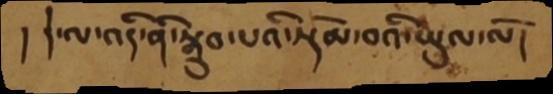།དེ་ལ་འདི་ནི་སྒྲུབ་པའི་སྡོམ་བའི་ཡུལ་ལོ།
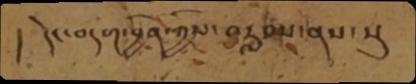། དེང་བདག་བྱིན་ཀྱིས་ བརླབས་ནས་སུ
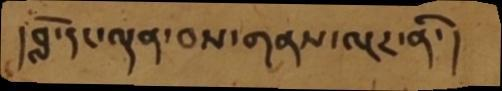།བློ་དང་ལྡན་བས་གནས་ལྔར་ནི་།
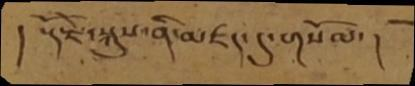། རྡོ་རྗེ་སྐུས་ནི་མཛད་དུ་གསོལ་།
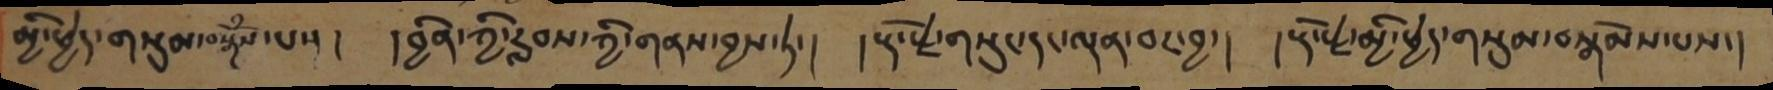མྱི་ཕྱེད་གསུམ་བསྒོཾས་པས་།  །བྱིན་ཀྱི་རླབས་ཀྱི་གནས་བྱས་ཏེ་།  །རྡོ་རྗེ་གསུང་དང་ལྡན་བར་བྱ་།   །རྡོ་རྗེ་མྱི་ཕྱེད་གསུམ་བསྒོམས་པས་།
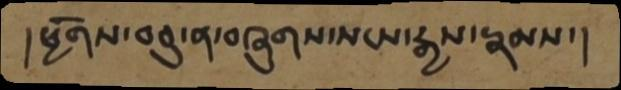།ཕྱོགས་བཅུ་ན་བཞུགས་སངས་རྒྱས་རྣམས་།
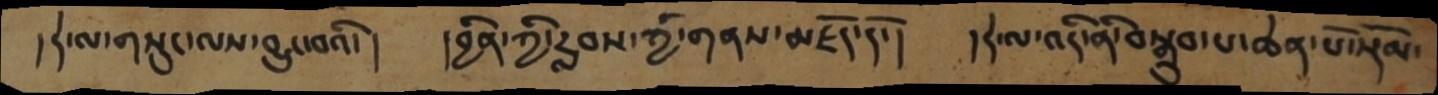།དེ་ལ་གསུང་ལས་བྱུང་བའི་།  །བྱིན་ཀྱི་རླབས་ཀྱི་གནས་མཛོད་དོ་།  །དེ་ལ་འདི་ནི་བསྒྲུབ་པ་ཆེན་པོ་སྡོམ་
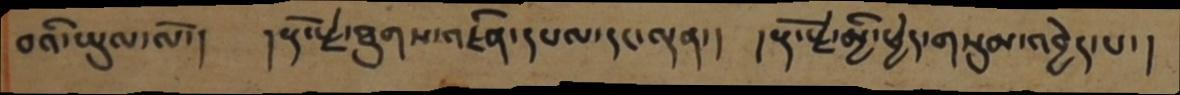བའི་ཡུལ་ལོ།  །རྡོ་རྗེ་ཐུགས་འཛིན་དཔལ་དང་ལྡན་།  །རྡོ་རྗེ་མྱི་ཕྱེད་གསུམ་འབྱེད་པ་།
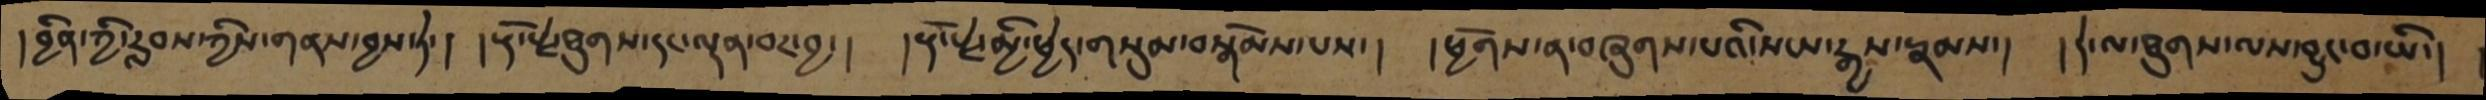།བྱིན་ཀྱི་རླབས་ཀྱིས་གནས་བྱས་ཏེ་།  །རྡོ་རྗེ་ཐུགས་དང་ལྡན་བར་བྱ་།   །རྡོ་རྗེ་མྱི་ཕྱེད་གསུམ་བསྒོམས་པས་།  །ཕྱོགས་ན་བཞུགས་པའི་སངས་རྒྱས་རྣམས་།  །དེ་ལ་ཐུགས་ལས་བྱུང་བ་ཡི་།
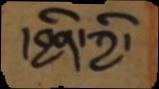།བྱིན་ཀྱི་
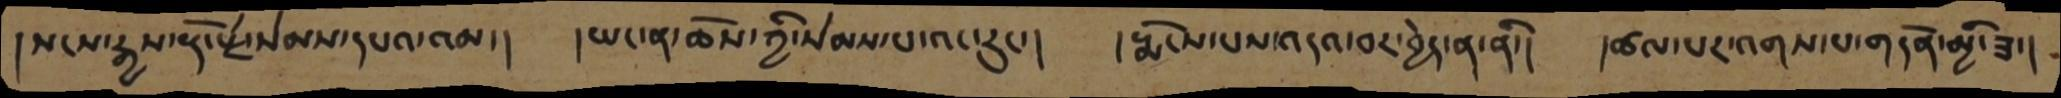།སངས་རྒཡས་རྡོ་རྗེ་ེམས་དཔའ་འམ་།  །ཡང་ན་ཆོས་ཀྱི་སེམས་པ་འང་རུང་།  །རྨོངས་པས་འདའ་བརར་བྱེད་ན་ནི་།  །ཚལ་པར་འགས་པ་གདོན་མྱི་ཟ་།
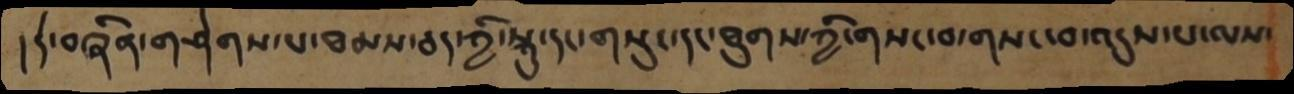།དེ་བཞིན་གཤེགས་པ་ཐམས་ཅད་ཀྱི་སྐུ་དང་གསུང་དང་ཐུགས་ཀྱི་གསང་བ་གསང་བ་འདུས་པ་ལས་
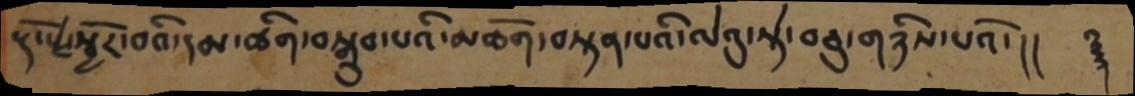རྡོ་རྗེ་སྦྱོར་བའི་དམ་ཚིག་བསྒྲུབ་པའི་མཆོག་བསྟན་པའི་ལེའུ་སྟེ་བཅུ་གཉིས་པའོ་།།   ࿑
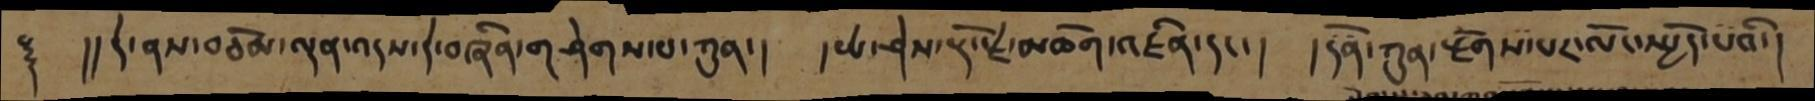༈  །།དེ་ནས་བཅོམ་ལྡན་འདས་དེ་བཞིན་གཤེགས་པ་ཀུན་།   །ཡེ་ཤེས་རྡོ་རྗེ་མཆོག་འཛིན་དང་།  །དོན་ཀུན་རྫོགས་པར་ལོང་སྤྱོད་པའི་།
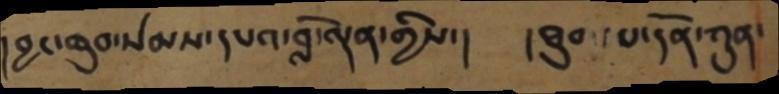།བྱང་ཆུབ་སེམས་དཔའ་བློ་ལྡན་གྱིས་།   །ཐུབ་པ་དོན་ཀུན་
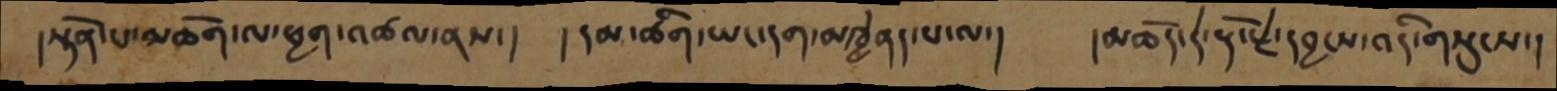།སྟོན་པ་མཆོག་ལ་ཕྱག་འཚལ་ནས་།  །དམ་ཚིག་ཡང་དག་མཁྱེནད་པ་ལ་།   །མཆོད་དེ་རྡོ་རྗེ་དབྱངས་འདི་གསུངས་།
